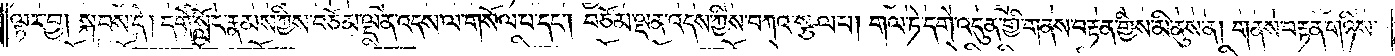ལྟར་བྱ། སྐབས་དེ། དགེ་སློང་རྣམས་ཀྱིས་བཅོམ་ལྡན་འདས་ལ་གསོལ་པ་དང༌། བཅོམ་ལྡན་འདས་ཀྱིས་བཀའ་སྩལ་པ། གལ་ཏེ་དགེ་འདུན་གྱི་གནས་བརྟན་གྱིས་མི་ནུས་ན། གནས་བརྟན་གཉིས་
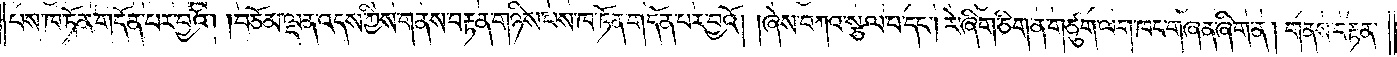པས་ཁ་ཏོན་གདོན་པར་བྱའོ། །བཅོམ་ལྡན་འདས་ཀྱིས་གནས་བརྟན་གཉིས་པས་ཁ་ཏོན་གདོན་པར་བྱའོ། །ཞེས་བཀའ་སྩལ་པ་དང༌། རེ་ཞིག་ཅིག་ན་གཙུག་ལག་ཁང་གཞན་ཞིག་ན། གནས་བརྟན་
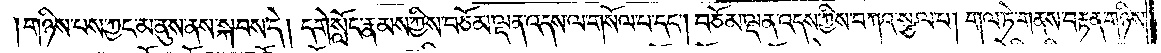གཉིས་པས་ཀྱང་མ་ནུས་ནས་སྐབས་དེ། དགེ་སློང་རྣམས་ཀྱིས་བཅོམ་ལྡན་འདས་ལ་གསོལ་པ་དང༌། བཅོམ་ལྡན་འདས་ཀྱིས་བཀའ་སྩལ་པ། གལ་ཏེ་གནས་བརྟན་གཉིས་
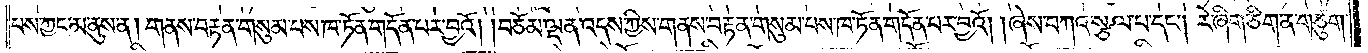པས་ཀྱང་མ་ནུས་ན། གནས་བརྟན་གསུམ་པས་ཁ་ཏོན་གདོན་པར་བྱའོ། །བཅོམ་ལྡན་འདས་ཀྱིས་གནས་བརྟན་གསུམ་པས་ཁ་ཏོན་གདོན་པར་བྱའོ། །ཞེས་བཀའ་སྩལ་པ་དང༌། རེ་ཞིག་ཅིག་ན་གཙུག་
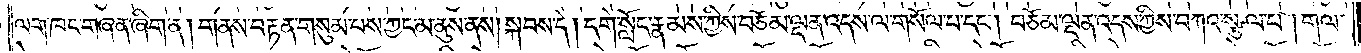ལག་ཁང་གཞན་ཞིག་ན། གནས་བརྟན་གསུམ་པས་ཀྱང་མ་ནུས་ནས། སྐབས་དེ། དགེ་སློང་རྣམས་ཀྱིས་བཅོམ་ལྡན་འདས་ལ་གསོལ་པ་དང༌། བཅོམ་ལྡན་འདས་ཀྱིས་བཀའ་སྩལ་པ། གལ་
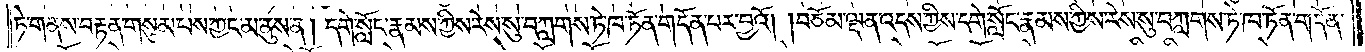ཏེ་གནས་བརྟན་གསུམ་པས་ཀྱང་མ་ནུས་ན། དགེ་སློང་རྣམས་ཀྱིས་རེས་སུ་བཀླགས་ཏེ་ཁ་ཏོན་གདོན་པར་བྱའོ། །བཅོམ་ལྡན་འདས་ཀྱིས་དགེ་སློང་རྣམས་ཀྱིས་རེས་སུ་བཀླགས་ཏེ་ཁ་ཏོན་གདོན་
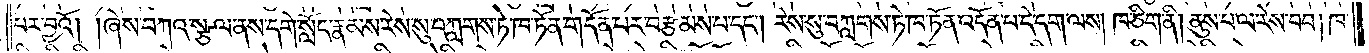པར་བྱའོ། །ཞེས་བཀའ་སྩལ་ནས་དགེ་སློང་རྣམས་རེས་སུ་བཀླགས་ཏེ་ཁ་ཏོན་གདོན་པར་བརྩམས་པ་དང༌། རེས་སུ་བཀླགས་ཏེ་ཁ་ཏོན་འདོན་པ་དེ་དག་ལས། ཁ་ཅིག་ནི། ནུས་པ་ལ་རེས་བབ། ཁ་
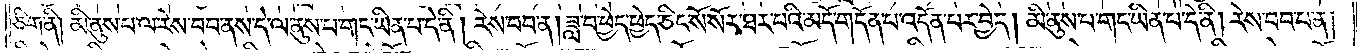ཅིག་ནི། མི་ནུས་པ་ལ་རེས་བབ་ནས་དེ་ལ་ནུས་པ་གང་ཡིན་པ་དེ་ནི། རེས་བབ་ན། ཟླ་བ་ཕྱེད་ཕྱེད་ཅིང་སོ་སོར་ཐར་པའི་མདོ་གདོན་པ་འདོན་པར་བྱེད། མི་ནུས་པ་གང་ཡིན་པ་དེ་ནི། རེས་བབ་པ་ན།
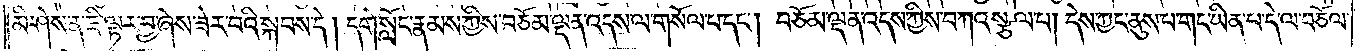མི་ཤེས་ན་ཇི་ལྟར་བྱ་ཞེས་ཟེར་བའི་སྐབས་དེ། དགེ་སློང་རྣམས་ཀྱིས་བཅོམ་ལྡན་འདས་ལ་གསོལ་པ་དང༌། བཅོམ་ལྡན་འདས་ཀྱིས་བཀའ་སྩལ་པ། དེས་ཀྱང་ནུས་པ་གང་ཡིན་པ་དེ་ལ་བཅོལ་
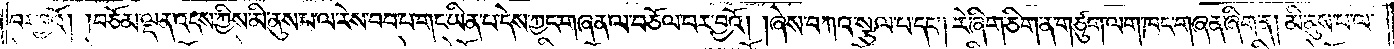བར་བྱའོ། །བཅོམ་ལྡན་འདས་ཀྱིས་མི་ནུས་པ་ལ་རེས་བབ་པ་གང་ཡིན་པ་དེས་ཀྱང་གཞན་ལ་བཅོལ་བར་བྱའོ། །ཞེས་བཀའ་སྩལ་པ་དང༌། རེ་ཞིག་ཅིག་ན་གཙུག་ལག་ཁང་གཞན་ཞིག་ན། མི་ནུས་པ་ལ་
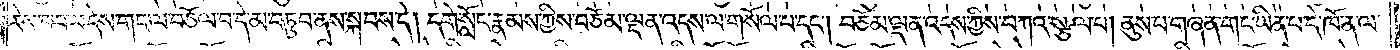རེས་བབ་པ་དེས་གང་ལ་བཅོལ་བ་དེ་མ་བཏུབ་ནས་སྐབས་དེ། དགེ་སློང་རྣམས་ཀྱིས་བཅོམ་ལྡན་འདས་ལ་གསོལ་པ་དང༌། བཅོམ་ལྡན་འདས་ཀྱིས་བཀའ་སྩལ་པ། ནུས་པ་གཞན་གང་ཡིན་པ་དེ་ཁོ་ན་ལ་
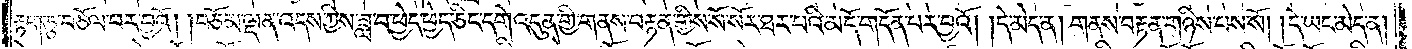རྟག་ཏུ་བཅོལ་བར་བྱའོ། །བཅོམ་ལྡན་འདས་ཀྱིས་ཟླ་བ་ཕྱེད་ཕྱེད་ཅིང་དགེ་འདུན་གྱི་གནས་བརྟན་གྱིས་སོ་སོར་ཐར་པའི་མདོ་གདོན་པར་བྱའོ། །དེ་མེད་ན། གནས་བརྟན་གཉིས་པས་སོ། །དེ་ཡང་མེད་ན།
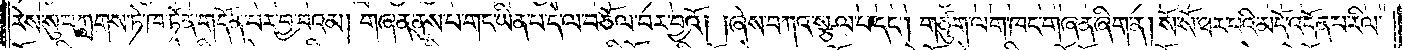རེས་སུ་བཀླགས་ཏེ་ཁ་ཏོན་གདོན་པར་བྱ་བའམ། གཞན་ནུས་པ་གང་ཡིན་པ་དེ་ལ་བཅོལ་བར་བྱའོ། །ཞེས་བཀའ་སྩལ་པ་དང༌། གཙུག་ལག་ཁང་གཞན་ཞིག་ན། སོ་སོ་ཐར་པའི་མདོ་འདོན་པ་རིལ་
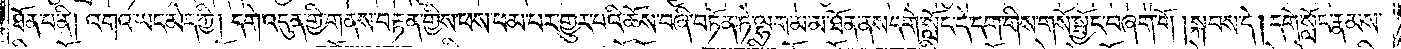ཐོན་པ་ནི། འགའ་ཡང་མེད་ཀྱི། དགེ་འདུན་གྱི་གནས་བརྟན་གྱིས་ཕས་ཕམ་པར་གྱུར་པའི་ཆོས་བཞི་བཏོན་ཏེ་ལྷག་མ་མ་ཐོན་ནས་དགེ་སློང་དེ་དག་གིས་གསོ་སྦྱོང་བཞག་གོ །སྐབས་དེ། དགེ་སློང་རྣམས་
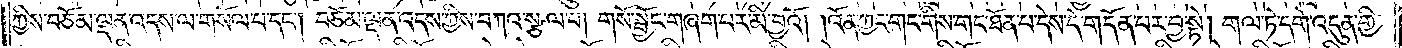ཀྱིས་བཅོམ་ལྡན་འདས་ལ་གསོལ་པ་དང༌། བཅོམ་ལྡན་འདས་ཀྱིས་བཀའ་སྩལ་པ། གསོ་སྦྱོང་གཞག་པར་མི་བྱའོ། །འོན་ཀྱང་གང་གིས་གང་ཐོན་པ་དེས་དེ་གདོན་པར་བྱ་སྟེ། གལ་ཏེ་དགེ་འདུན་གྱི་
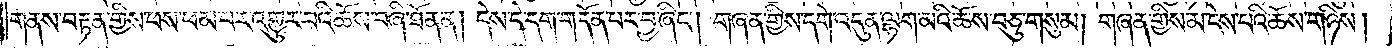གནས་བརྟན་གྱིས་ཕས་ཕམ་པར་འགྱུར་བའི་ཆོས་བཞི་ཐོན་ན། དེས་དེ་དག་གདོན་པར་བྱ་ཞིང༌། གཞན་གྱིས་དགེ་འདུན་ལྷག་མའི་ཆོས་བཅུ་གསུམ། གཞན་གྱིས་མ་ངེས་པའི་ཆོས་གཉིས།
